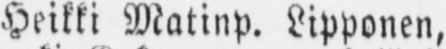Heikki Matinp. Lipponen,
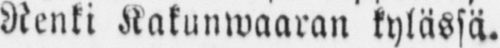Renki Kakunwaaran kylässä.
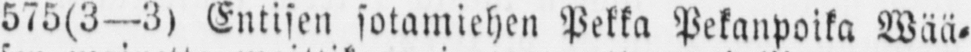575(3—3) Entisen sotamiehen Pekka Pekanpoika Wää-
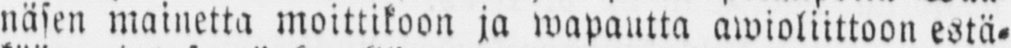näsen mainetta moittikoon ja wapautta awioliittoon estä-
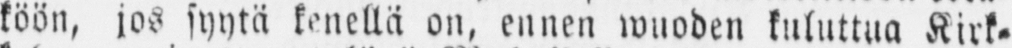köön, jos syytä kenellä on, ennen wuoden kuluttua Kirk-
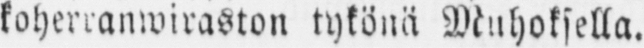koherranwiraston tykönä Muhoksella.
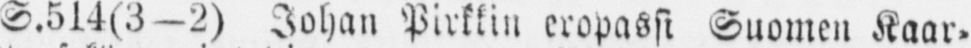S.514(3—2) Johan Pirkkin eropassi Suomen Kaar-
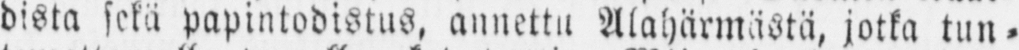dista sekä papintodistus, annettu Alahärmästä, jotka tun,
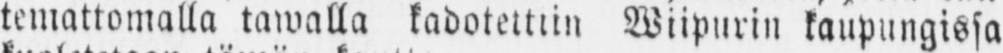temattomalla tawalla kadotettiin Wiipurin kaupungissa,
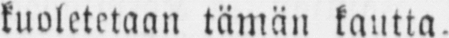kuoletetaan tämän kautta.
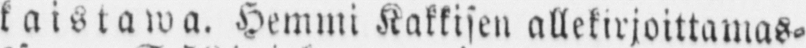Oikaistawa. Hemmi Kakkisen allekirjoittamas-
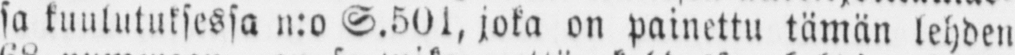sa kuulutuksessa n:o S.501, joka on painettu tämän lehden
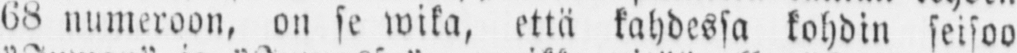68 numeroon, on se wika, että kahdessa kohdin seisoo
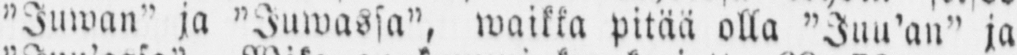”Juwan” ja ”Juwassa”, waikka pitää olla ”Juu’an” ja
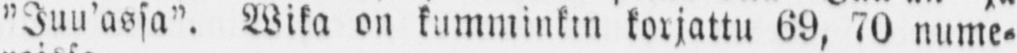”Juu’assa”. Wika on kumminkin korjattu 69, 70 nume-
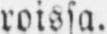roissa.
